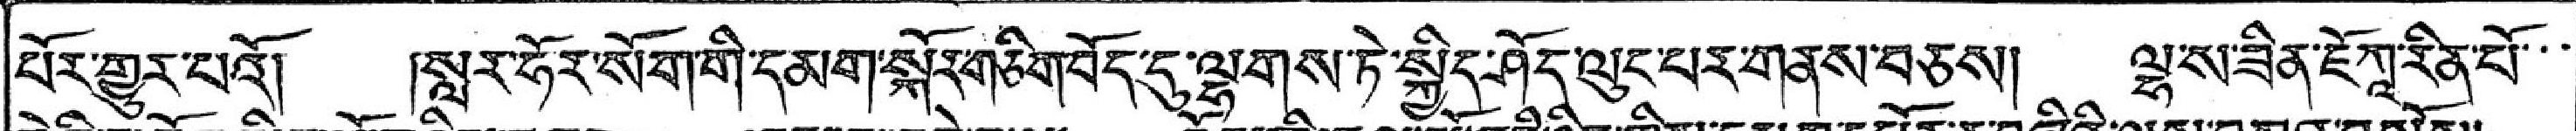པོར་གྱུར་པའོ། །སླར་ཧོར་སོག་གི་དམག་སྐོར་གཅིག་བོད་དུ་ལྷགས་ཏེ་སྐྱིད་ཤོད་ལུང་པར་གནས་བཅས། ལྷ་ས་ཟིན་ཇོཀཱརིན་པོ་
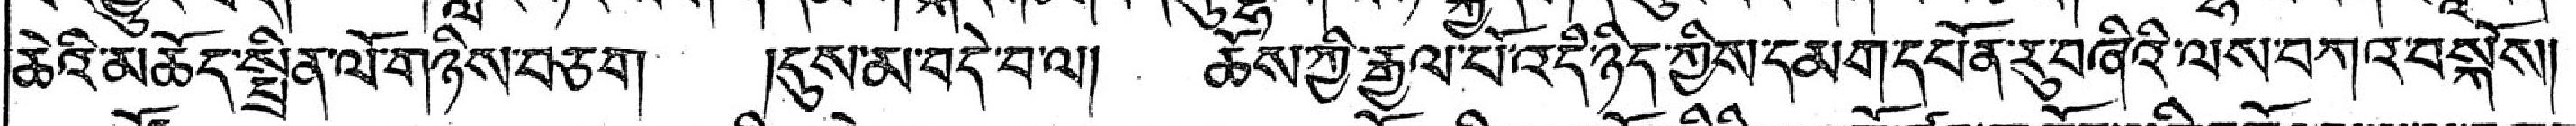ཆེའི་མཆོད་སྤྲིན་ལོ་གཉིས་བཅག །དུས་མ་བདེ་བ་ལ། ཆོས་ཀྱི་རྒྱལ་པོ་འདི་ཉིད་ཀྱིས་དམག་དཔོན་རུ་བཞིའི་ལས་བཀའ་བསྐོས།
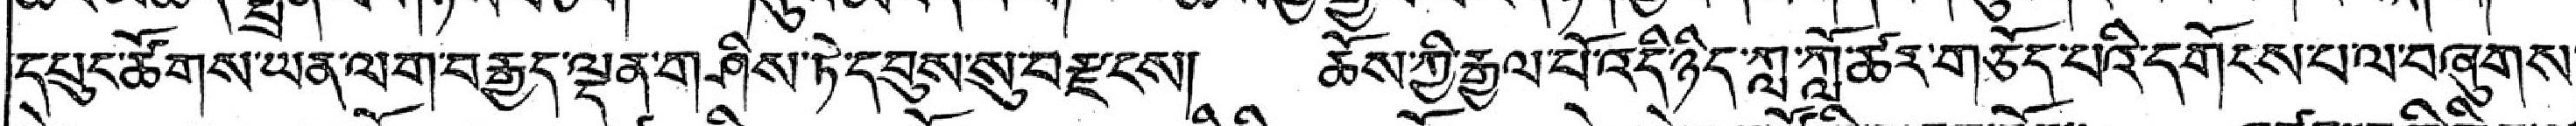དཔུང་ཚོགས་ཡན་ལག་བརྒྱད་ལྡན་གཤིས་ཏེ་དབུས་སུ་བརྫངས། ཆོས་ཀྱི་རྒྱལ་པོ་འདི་ཉིད་ཀླ་ཀློ་ཚར་གཅོད་པའི་དགོངས་པ་ལ་བཞུགས་
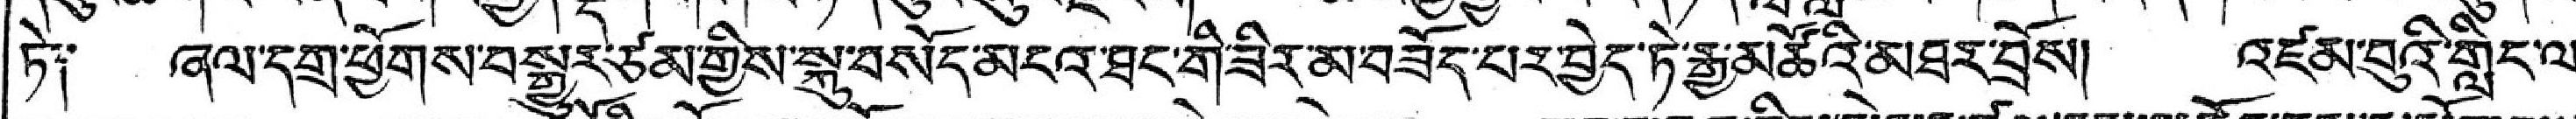ཏི༑ ཞལ་དགྲ་ཕྱོགས་བསྒྱུར་ཙམ་གྱིས་སྐུ་བསོད་མངའ་ཐང་གི་ཟིར་མ་བཟོད་པར་བྱེད་ཏེ་རྒྱ་མཚོའི་མཐར་བྲོས། འཛམ་བུའི་གླིང་ལ་
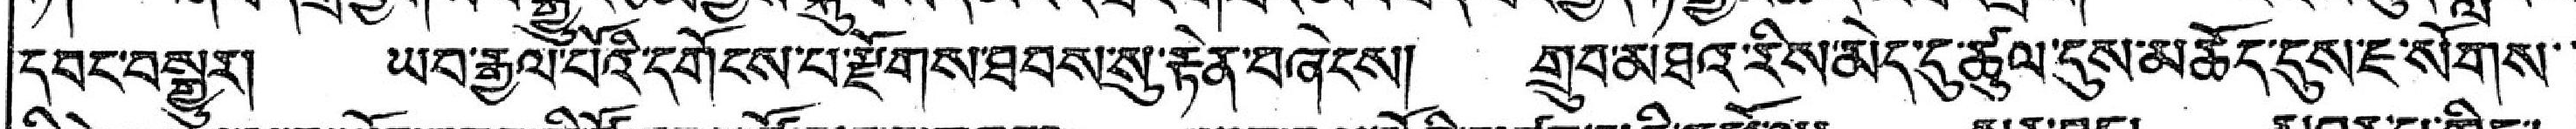དབང་བསྒྱུར། ཡབ་རྒྱལ་པོའི་དགོངས་པ་རྫོགས་ཐབས་སུ་རྟེན་བཞེངས། གྲུབ་མཐའ་རིས་མེད་དུ་ཚུལ་དུས་མཆོད་དུས་ཇ་སོགས་་
